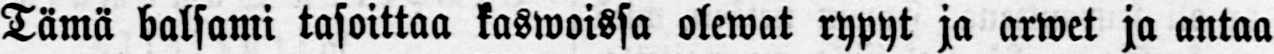Tämä balsami tasoittaa kaswoissa olewat rypyt ja arwet ja antaa
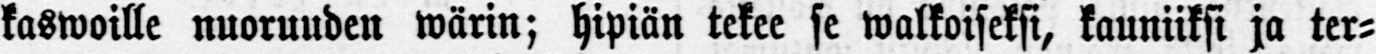kaswoille nuoruuden wärin; hipiän tekee se walkoiseksi, kauniiksi ja ter-
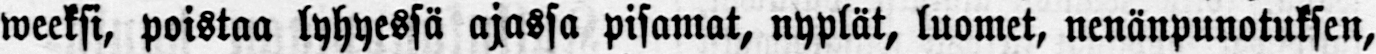weeksi, poistaa lyhyessä ajassa pisamat, nyplät, luomet, nenänpunotuksen,
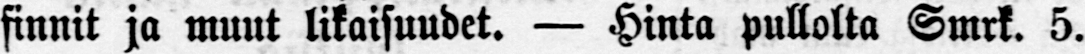finnit ja muut likaisuudet. — Hinta pullolta Smrk. 5.
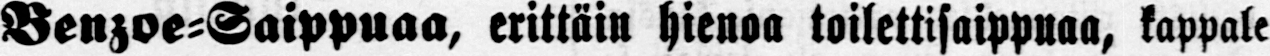Benzoe-Saippuaa, erittäin hienoa toilettisaippuaa, kappale
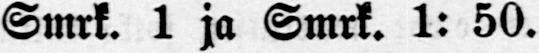Smrk. 1 ja Smrk. 1: 50.
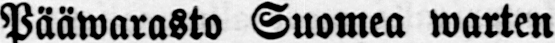Pääwarasto Suomea warten
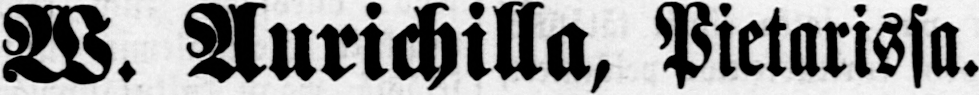W. Aurichilla, Pietarissa.
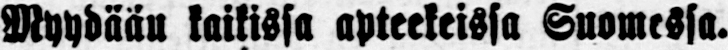Myydään kaikissa apteekeissa Suomessa.
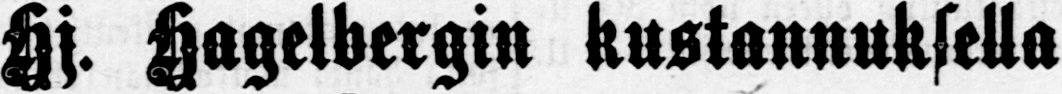Hj. Hagelbergin kustannuksella
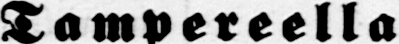Tampereella
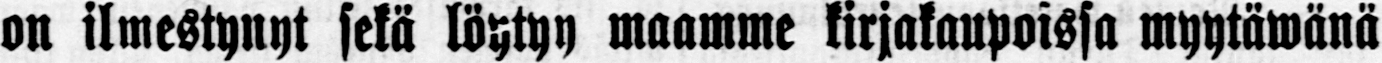on ilmestynyt sekä löytyy maamme kirjakaupoissa myytäwänä
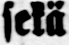sekä
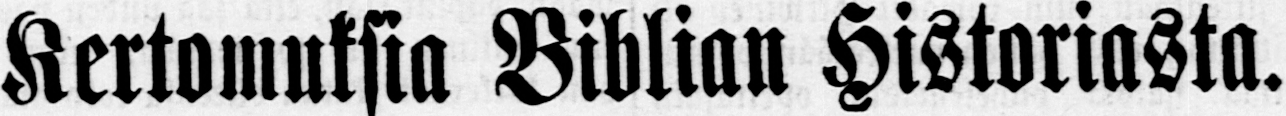Kertomuksia Biblian Historiasta.
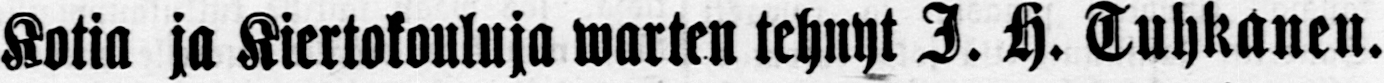Kotia ja Kiertokouluja warten tehnyt I. H. Tuhkanen.
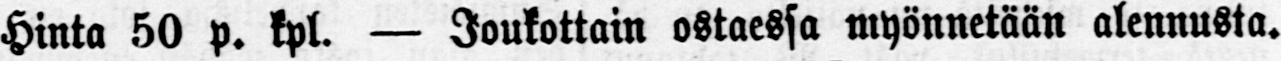Hinta 50 p. kpl. — Joukottain ostaessa myönnetään alennusta.
